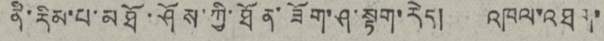ནི་རིམ་པ་མཐོ་ཤོས་ཀྱི་ཐོན་ཟོག་ཤ་སྟག་རེད།  འཁལ་འཐག་
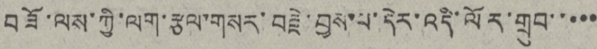བཟོ་ལས་ཀྱི་ལག་རྩལ་གསར་བརྗེ་བྱས་པ་དེར་འདི་ལོར་གྲུབ་་་་་
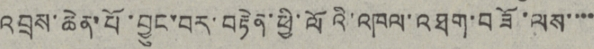འབྲས་ཆེན་པོ་བྱུང་བར་བརྟེན་ཕྱི་ལོའི་འཁལ་འཐག་བཟོ་ལས་་་་
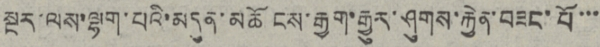སྔར་ལས་ལྷག་པའི་མདུན་མཆོངས་རྒྱག་རྒྱུར་ཤུགས་རྐྱེན་བཟང་པོ་་་
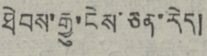ཐེབས་རྒྱུ་ངེས་ཅན་རེད།
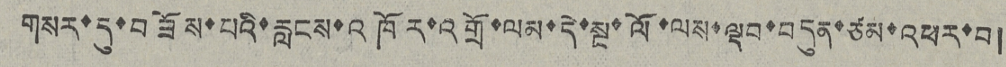གསར་དུ་བཟོས་པའི་རླངས་འཁོར་འགྲོ་ལམ་དེ་སྔ་ལོ་ལས་ལྡབ་བདུན་ཙམ་འཕར་བ།
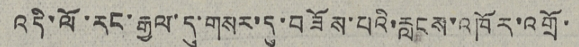འདི་ལོ་རང་རྒྱལ་དུ་གསར་དུ་བཟོས་པའི་རླངས་འཁོར་འགྲོ་
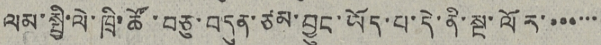ལམ་སྤྱི་ལེ་ཁྲི་ཚོ་བཅུ་བདུན་ཙམ་བྱུང་ཡོད་པ་དེ་ནི་སྔ་ལོར་་་་་་་
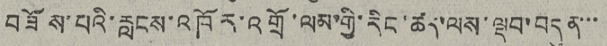བཟོས་པའི་རླངས་འཁོར་འགྲོ་ལམ་གྱི་རིང་ཚད་ལས་ལྡབ་བདུན་་་
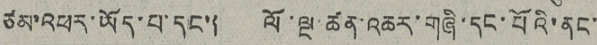ཙམ་འཕར་ཡོད་པ་དང་། ལོ་ལྔ་ཚན་འཆར་གཞི་དང་པོའི་ནང་
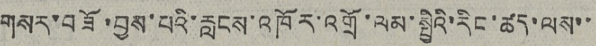གསར་བཟོ་བྱས་པའི་རླངས་འཁོར་འགྲོ་ལམ་སྤྱིའི་རིང་ཚད་ལས་་
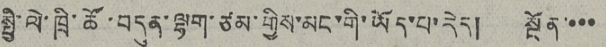སྤྱི་ལེ་ཁྲི་ཚོ་བདུན་ལྷག་ཙམ་གྱིས་མང་གི་ཡོད་པ་རེད། སྔོན་་་་
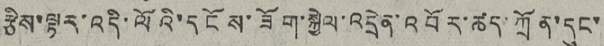རྩིས་ལྟར་འདི་ལོའི་དངོས་ཟོག་སྐྱེལ་འདྲེན་འབོར་ཚད་ཀྲོན་དུང་
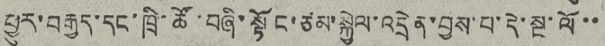ཕྱུར་བརྒྱད་དང་ཁྲི་ཚོ་བཞི་སྟོང་ཙམ་སྐྱེལ་འདྲེན་བྱས་པ་དེ་སྔ་ལོ་་
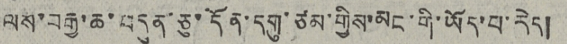ལས་བརྒྱ་ཆ་བདུན་ཅུ་དོན་དགུ་ཙམ་གྱིས་མང་གི་ཡོད་པ་རེད།
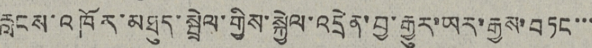རླངས་འཁོར་མཐུད་སྦྲེལ་གྱིས་སྐྱེལ་འདྲེན་བྱ་རྒྱུར་ཡར་རྒྱས་བཏང་་་
